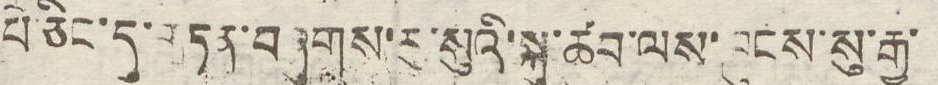པེ ཅིང་དུ་གཏན་བཞུགས་རུ་སུའི་སྐུ་ཚབ་ལས་ཁུངས་སུ་རྒྱ་
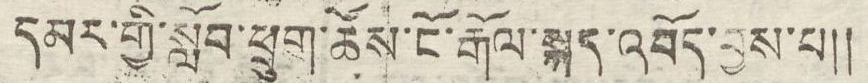དམར་གྱི་སློབ་ཕྲུག་ཚོས་ངོ་རྒོལ་སྐད་འབོད་བྱས་པ།།
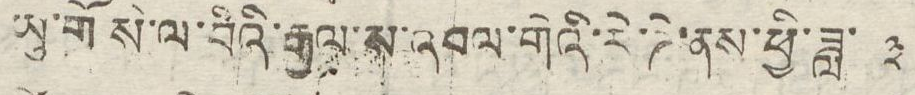ཡུ་གོ སེ་ལ་བིའི་རྒྱལ་ས་འབར་གེའི་རེ་ཌེ་ནས་ཕྱི་ཟླ་ ༣
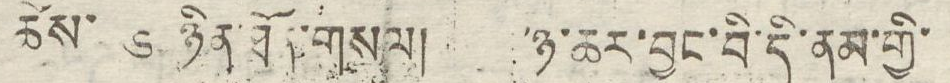ཚེས་ ༦ ཉིན་ཐོན་གསལ། ་ཉ་ཆར་བྱང་བི་དི་ནམ་གྱི་
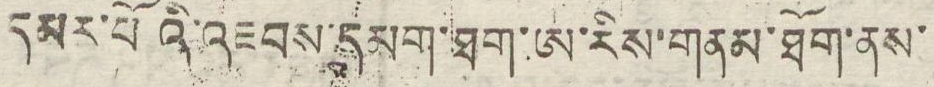དམར་པོའི་འཇབས་དམག་ཐག་ཨ་རིས་གནམ་ཐོག་ནས་
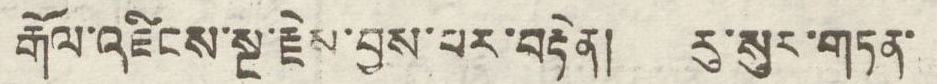རྒོལ་འཛིངས་སྔ་རྗེས་བྱས་པར་བརྟེན། རུ་སུར་གཏན་
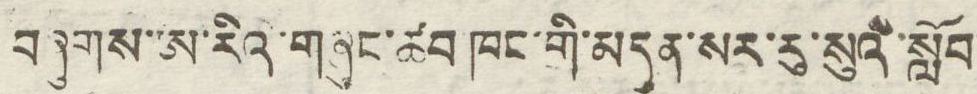བཞུགས་ཨ་རིའི་གཞུང་ཚབ ཁང་གི་མདུན་སར་རུ་སུའི་སློབ་
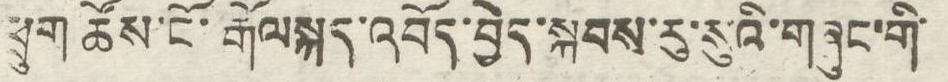ཕྲུག་ཚོས་ངོ་རྒོལསྐད་འབོད་བྱེད་སྐབས་རུ་སུའི་གཞུང་གི་
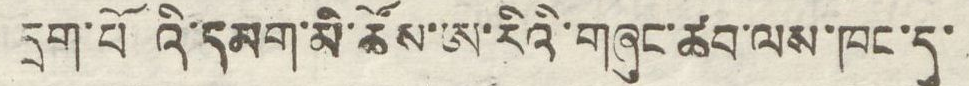དྲག་པོའི་དམག་མི་ཚོས་ཨ་རིའི་གཞུང་ཚབ་ལས་ཁང་དུ་
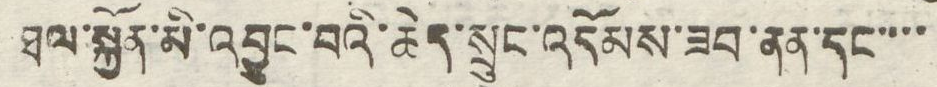ཐལ་སྐྱོན་མི་འབྱུང་བའི་ཆེད་སྲུང་འདོམས་ཟབ་ནན་དང་་་་
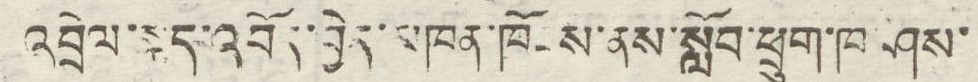འབྲེལ་སྐད་འབོད་བྱེད་མཁན་ཁོངས་ནས་སློབ་ཕྲུག་ཁ་ཤས་
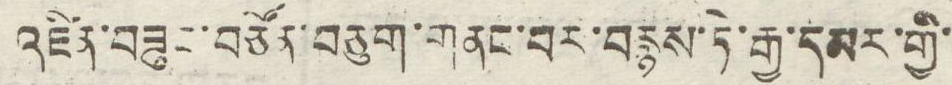འཛིན་བཟུང་བཙོན་བཅུག་གནང་བར་བརྙས་ཏེ་རྒྱ་དམར་གྱི་
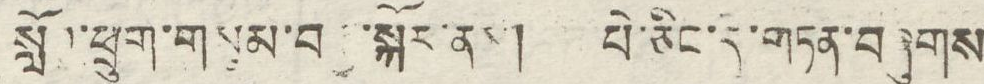སློབ་ཕྲུག་གསུམ་བརྒྱ་སྐོར་ནས། པེ་ཅིང་དུ་གཏན་བཞུགས
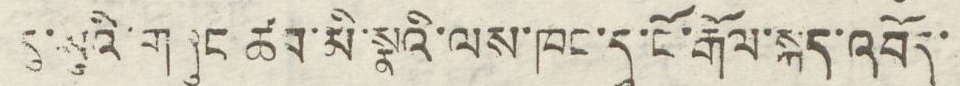རུ་སུའི་གཞུང ཚབ་མི་སྣའི་ལས་ཁང་དུ་ངོ་རྒོལ་སྐད་འབོད་
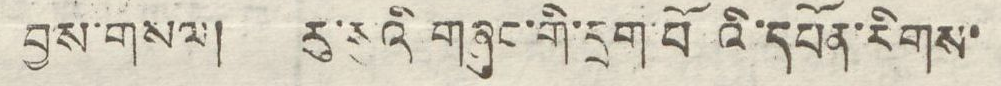བྱས་གསལ། རུ་སུའི གཞུང་གི་དྲག་པོའི་དཔོན་རིགས་
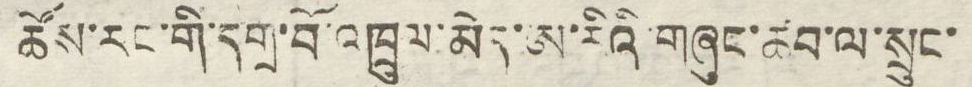ཚོས་རང་གི་དགྲ་བོ་འཁྲུལ་མེད་ཨ་རིའི་གཞུང་ཚབ་ལ་སྲུང་
